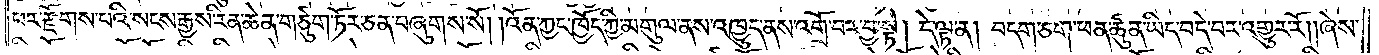པར་རྫོགས་པའི་སངས་རྒྱས་རིན་ཆེན་གཙུག་ཏོར་ཅན་བཞུགས་སོ། །འོན་ཀྱང་ཁྱོད་ཀྱི་མགུལ་ནས་འཁྱུད་ནས་འགྲོ་བར་བྱ་སྟེ། དེ་ལྟ་ན། བདག་ཅག་ཕན་ཚུན་ཡིད་བདེ་བར་འགྱུར་རོ། །ཞེས་
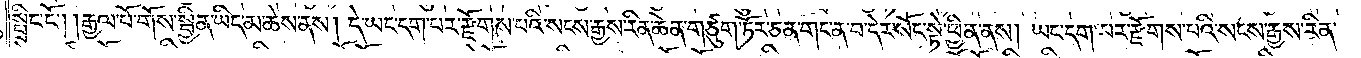སྤྲིང་ངོ༌། །རྒྱལ་པོ་གོས་སྦྱིན་ཡིད་མ་ཆེས་ནས། དེ་ཡང་དག་པར་རྫོགས་པའི་སངས་རྒྱས་རིན་ཆེན་གཙུག་ཏོར་ཅན་གང་ན་བ་དེར་སོང་སྟེ་ཕྱིན་ནས། ཡང་དག་པར་རྫོགས་པའི་སངས་རྒྱས་རིན་
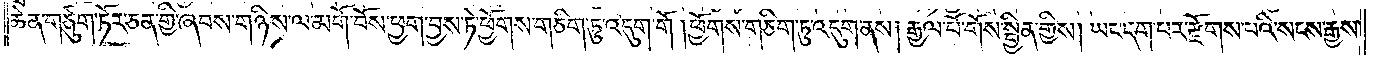ཆེན་གཙུག་ཏོར་ཅན་གྱི་ཞབས་གཉིས་ལ་མགོ་བོས་ཕྱག་བྱས་ཏེ་ཕྱོགས་གཅིག་ཏུ་འདུག་གོ །ཕྱོགས་གཅིག་ཏུ་འདུག་ནས། རྒྱལ་པོ་གོས་སྦྱིན་གྱིས། ཡང་དག་པར་རྫོགས་པའི་སངས་རྒྱས་
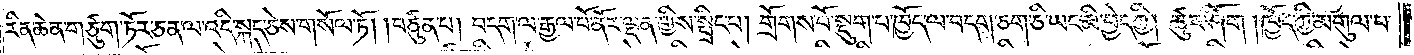རིན་ཆེན་གཙུག་ཏོར་ཅན་ལ་འདི་སྐད་ཅེས་གསོལ་ཏོ། །བཙུན་པ། བདག་ལ་རྒྱལ་པོ་ནོར་ལྡན་གྱིས་སྤྲིང་པ། གྲོགས་པོ་སྡུག་པ་ཁྱོད་ལ་བདག་ཅག་ཅི་ཡང་མི་བྱེད་ཀྱི། ཚུར་ཤོག །ཁྱོད་ཀྱི་མགུལ་པ་
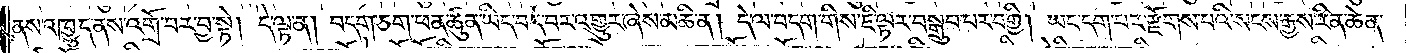ནས་འཁྱུད་ནས་འགྲོ་བར་བྱ་སྟེ། དེ་ལྟ་ན། བདག་ཅག་ཕན་ཚུན་ཡིད་བདེ་བར་འགྱུར་ཞེས་མཆི་ན། དེ་ལ་བདག་གིས་ཇི་ལྟར་བསྒྲུབ་པར་བགྱི། ཡང་དག་པར་རྫོགས་པའི་སངས་རྒྱས་རིན་ཆེན་
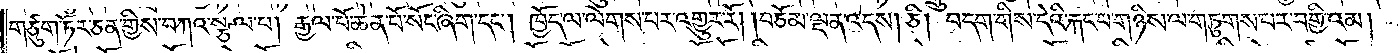གཙུག་ཏོར་ཅན་གྱིས་བཀའ་སྩལ་པ། རྒྱལ་པོ་ཆེན་པོ་སོང་ཞིག་དང༌། ཁྱོད་ལ་ལེགས་པར་འགྱུར་རོ། །བཅོམ་ལྡན་འདས། ཅི། བདག་གིས་དེའི་རྐང་པ་གཉིས་ལ་གཏུགས་པར་བགྱིའམ།
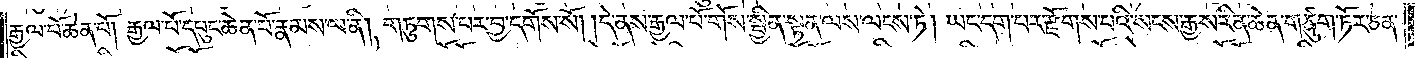རྒྱལ་པོ་ཆེན་པོ། རྒྱལ་པོ་དཔུང་ཆེན་པོ་རྣམས་ལ་ནི། གཏུགས་པར་བྱ་དགོས་སོ། །དེ་ནས་རྒྱལ་པོ་གོས་སྦྱིན་སྟན་ལས་ལངས་ཏེ། ཡང་དག་པར་རྫོགས་པའི་སངས་རྒྱས་རིན་ཆེན་གཙུག་ཏོར་ཅན་
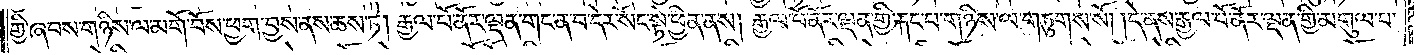གྱི་ཞབས་གཉིས་ལ་མགོ་བོས་ཕྱག་བྱས་ནས་ཆས་ཏེ། རྒྱལ་པོ་ནོར་ལྡན་གང་ན་བ་དེར་སོང་སྟེ་ཕྱིན་ནས། རྒྱལ་པོ་ནོར་ལྡན་གྱི་རྐང་པ་གཉིས་ལ་གཏུགས་སོ། །དེ་ནས་རྒྱལ་པོ་ནོར་ལྡན་གྱི་མགུལ་པ་
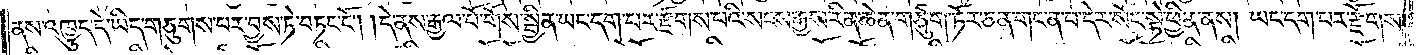ནས་འཁྱུད་དེ་ཡིད་གཅུགས་པར་བྱས་ཏེ་བཏང་ངོ༌། །དེ་ནས་རྒྱལ་པོ་གོས་སྦྱིན་ཡང་དག་པར་རྫོགས་པའི་སངས་རྒྱས་རིན་ཆེན་གཙུག་ཏོར་ཅན་གང་ན་བ་དེར་སོང་སྟེ་ཕྱིན་ནས། ཡང་དག་པར་རྫོགས་
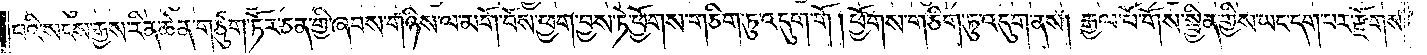པའི་སངས་རྒྱས་རིན་ཆེན་གཙུག་ཏོར་ཅན་གྱི་ཞབས་གཉིས་ལ་མགོ་བོས་ཕྱག་བྱས་ཏེ་ཕྱོགས་གཅིག་ཏུ་འདུག་གོ། ཕྱོགས་གཅིག་ཏུ་འདུག་ནས། རྒྱལ་པོ་གོས་སྦྱིན་གྱིས་ཡང་དག་པར་རྫོགས་
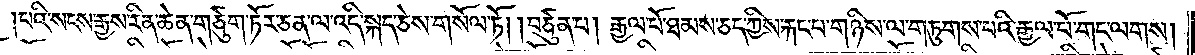པའི་སངས་རྒྱས་རིན་ཆེན་གཙུག་ཏོར་ཅན་ལ་འདི་སྐད་ཅེས་གསོལ་ཏོ། །བཙུན་པ། རྒྱལ་པོ་ཐམས་ཅད་ཀྱིས་རྐང་པ་གཉིས་ལ་གཏུགས་པའི་རྒྱལ་པོ་གང་ལགས།
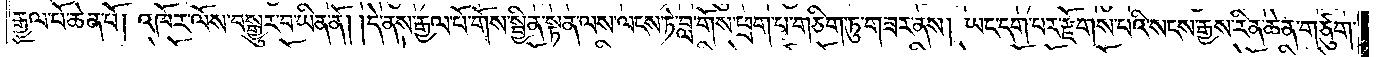རྒྱལ་པོ་ཆེན་པོ། འཁོར་ལོས་བསྒྱུར་བ་ཡིན་ནོ། །དེ་ནས་རྒྱལ་པོ་གོས་སྦྱིན་སྟན་ལས་ལངས་ཏེ་བླ་གོས་ཕྲག་པ་གཅིག་ཏུ་གཟར་ནས། ཡང་དག་པར་རྫོགས་པའི་སངས་རྒྱས་རིན་ཆེན་གཙུག་
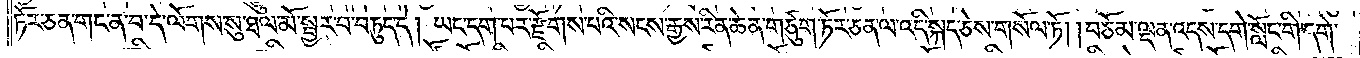ཏོར་ཅན་གང་ན་བ་དེ་ལོགས་སུ་ཐལ་མོ་སྦྱར་བ་བཏུད་དེ། ཡང་དག་པར་རྫོགས་པའི་སངས་རྒྱས་རིན་ཆེན་གཙུག་ཏོར་ཅན་ལ་འདི་སྐད་ཅེས་གསོལ་ཏོ། །བཅོམ་ལྡན་འདས་དགེ་སློང་གི་དགེ་
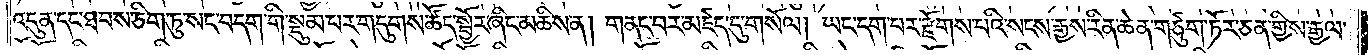འདུན་དང་ཐབས་ཅིག་ཏུ་སང་བདག་གི་སྡུམ་པར་གདུགས་ཚོད་སྦྱོར་ཞིང་མཆིས་ན། གནང་བར་མཛད་དུ་གསོལ། ཡང་དག་པར་རྫོགས་པའི་སངས་རྒྱས་རིན་ཆེན་གཙུག་ཏོར་ཅན་གྱིས་རྒྱལ་
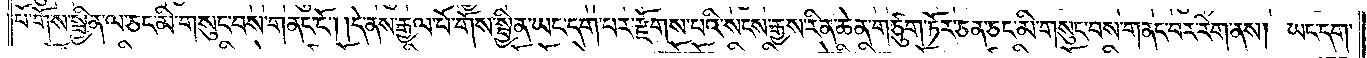པོ་གོས་སྦྱིན་ལ་ཅང་མི་གསུང་བས་གནང་ངོ༌། །དེ་ནས་རྒྱལ་པོ་གོས་སྦྱིན་ཡང་དག་པར་རྫོགས་པའི་སངས་རྒྱས་རིན་ཆེན་གཙུག་ཏོར་ཅན་ཅང་མི་གསུང་བས་གནང་བར་རིག་ནས། ཡང་དག་
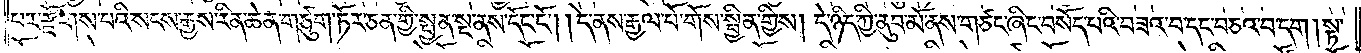པར་རྫོགས་པའི་སངས་རྒྱས་རིན་ཆེན་གཙུག་ཏོར་ཅན་གྱི་སྤྱན་སྔ་ནས་དོང་ངོ༌། །དེ་ནས་རྒྱལ་པོ་གོས་སྦྱིན་གྱིས། དེ་ཉིད་ཀྱི་ནུབ་མོ་ནས་གཙང་ཞིང་བསོད་པའི་བཟའ་བ་དང་བཅའ་བ་དག །སྟ་
